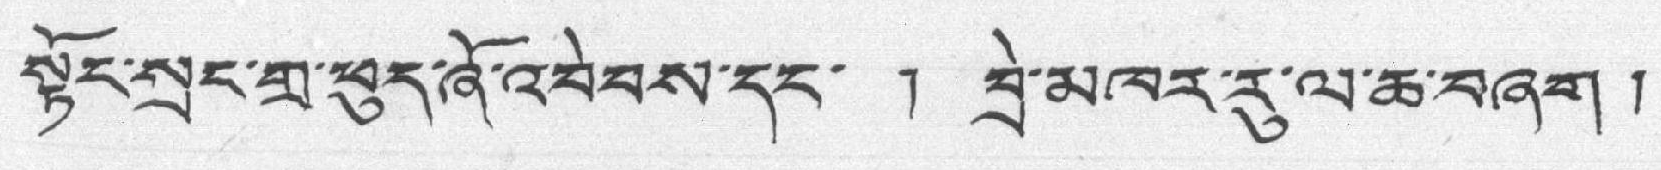སྟོང་སྲང་གྲ་ཕུད་ཞོ་འབེབས་དང་ ། བྲེ་མཁར་རུ་ལ་ཆ་བཞག །
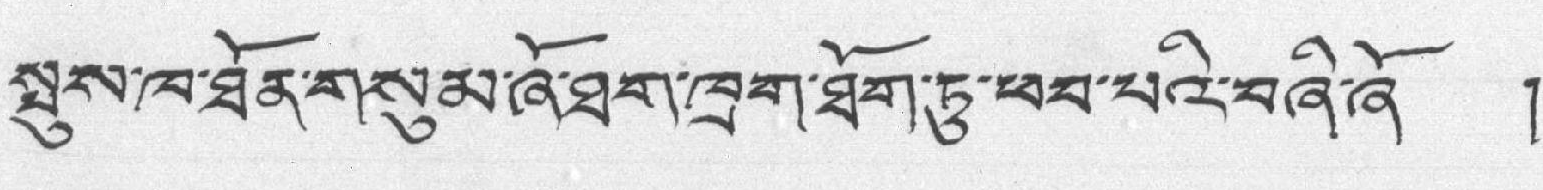སྤུས་ཁ་ཐོན་གསུམ་ཞོ་ཐག་ཁྲག་ཐོག་ཏུ་ཕབ་པའི་བཞི་ཞོ །
